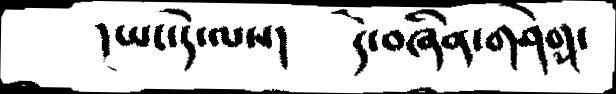།ཡང་དེ་ལས།   དེ་བཞིན་གཤེགས་
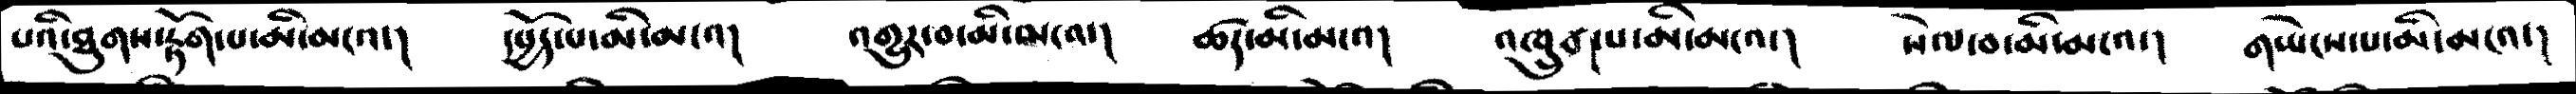པའི་ཐུགས་རྟོག་པ་མི་མངའ་།  དཔྱོད་པ་མི་མངའ།    འགྱུར་བ་མི་མངའ་།   ཚད་མི་མངའ།    འཁྲུགས་མི་མངའ་།   སེལ་བ་མི་མངའ་།   གཡེངས་པ་མི་མངའ་།
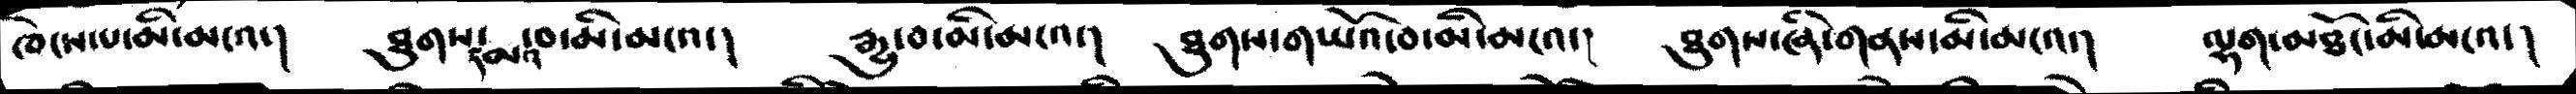ཁེངས་པ་མི་མངའ་།  ཐུགས་དམའ་བ་མི་མངའ་།   རྒྱུ་བ་མི་མངའ་།  ཐུགས་གཡོའ་བ་མི་མངའ་།   ཐུགས་ཞི་གནས་མི་མངའ་།  ལྷག་མཐོང་མི་མངའ་།
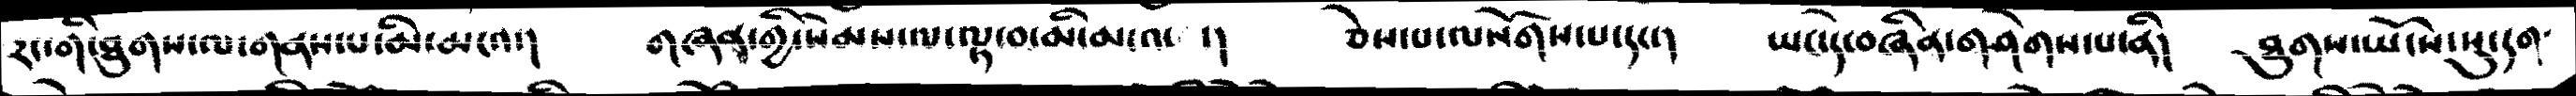རང་གི་ཐུགས་ལ་གནས་པའི་མི་མངའ་།    གཞན་གྱི་སེམས་ལ་ལྟ་བ་མི་མངའ་ ་།     ཅེས་པ་ལསོགས་པ་དང་།   ཡང་དེ་བཞིན་གཤེགས་པ་ནི།  ཐུགས་ཡོངས་སུ་དག་
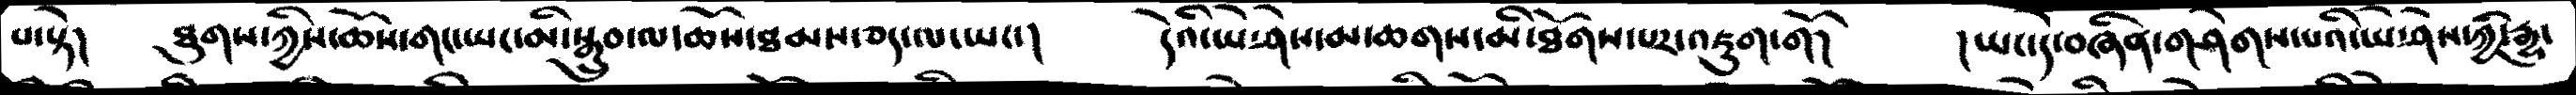པ་སྟེ།   ཐུགས་ཀྱིས་ཆོས་གང་ཡང་མི་སྒྲུབ་ལ་ཆོས་ཐམས་ཅད་ལ་ཡང་།     དེའི་ཡེ་ཤེས་མ་ཆགས་མི་ཐོགས་པར་འཇུག་གོ།  །ཡང་དེ་བཞིན་གཤེགས་པའི་ཡེ་ཤེས་ཀྱི་རྒྱུ་
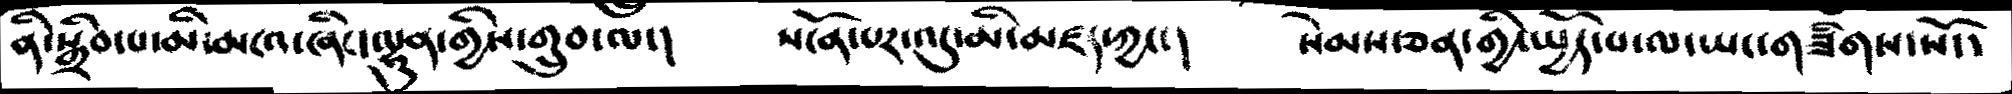ནི་སྒྲིབ་པ་མི་མངའ་ཞིང་ལྷུན་གྱིས་གྲུབ་ལ་།   སངོན་པར་འདུ་མི་མཛད་ཀྱང་།    སེམས་ཅན་གྱི་སྤྱོད་པ་ལ་ཡང་གཟིགས་སོ་།
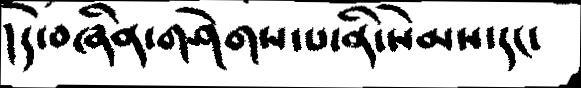།དེ་བཞིན་གཤེགས་པ་ནི་སེམས་དང་
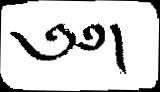༄༅།
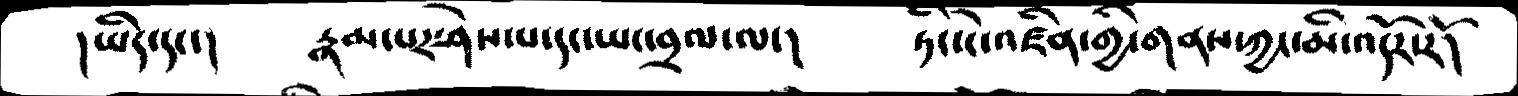།ཡིད་དང་།    རྣམ་པར་ཤེས་པ་དང་ཡང་བྲལ་ལ་།     ཏིང་ངེ་འཛིན་གྱི་གནས་ཀྱང་མི་འདོར་རོ།
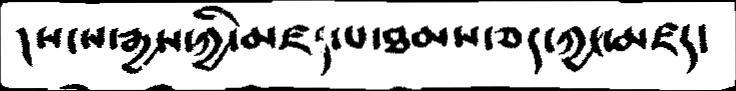།སངས་རྒྱས་ཀྱི་མཛད་པ་ཐམས་ཅད་ཀྱང་མཛད་
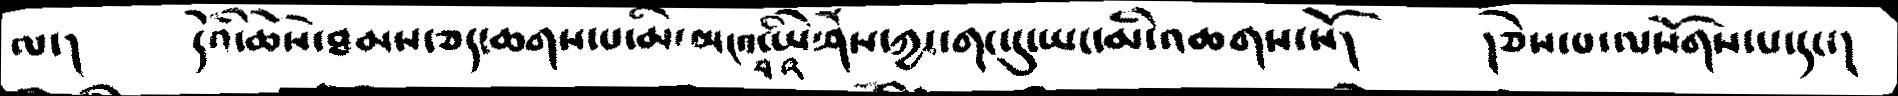ལ་།   དེའི་ཆོས་ཐམས་ཅད་ཆགས་པ་མ་མངའ་བའི་ཡེ་ཤེས་ཀྱང་གང་དུ་ཡང་མི་འཆགས་སོ།      །ཅེས་པ་ལསོགས་པ་དང་།
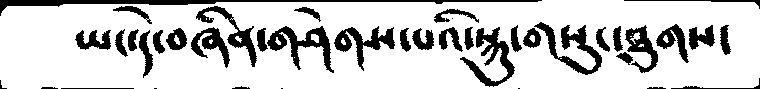ཡང་དེ་བཞིན་གཤེགས་པའི་སྐུ་གསུང་ཐུགས་
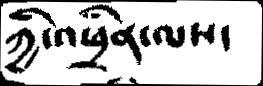ཀྱི་འཕྲིན་ལས་
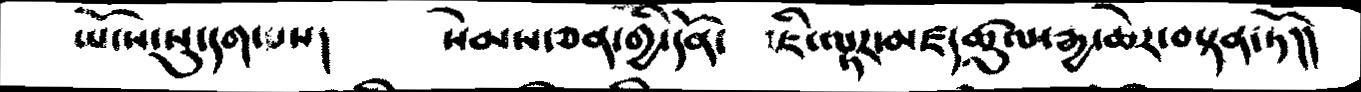ཡོངས་སུ་དག་པས།      སེམས་ཅན་གྱི་དོན།   ཇི་ལྟར་མཛད་ཚུལ་རྒྱ་ཆེར་བསྟན་ཏོ།།
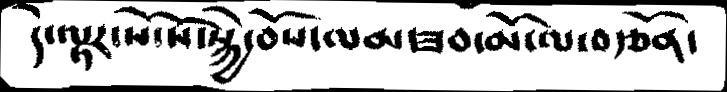དེ་ལྟར་སོ་སོ་སྐྱེ་བོས་ལམ་ཟབ་མོ་ལ་བརྩོན་
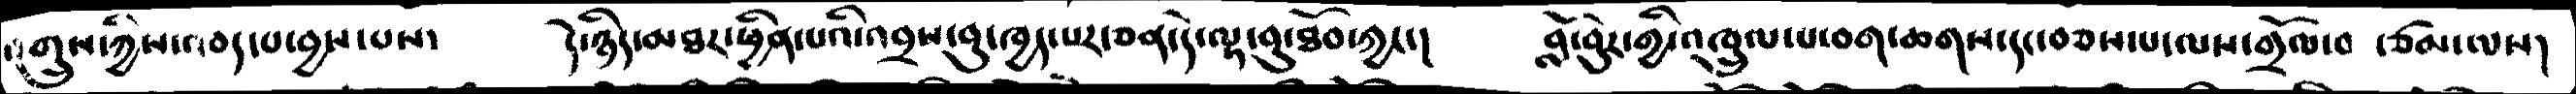འགྲུས་ཀྱིས་འབད་པ་བྱས་པས།  དེ་ཉིད་མཐར་ཕྱིན་པའི་འབྲས་བུ་ཁྱད་པར་ཅན་དེ་ལྟ་བུ་ཐོབ་ཀྱང་།     བློ་བུར་གྱི་འཁྲུལ་པ་བག་ཆགས་དང་བཅས་པ་ལས་གྲོལ་བ ་ཙམ་ལས།
